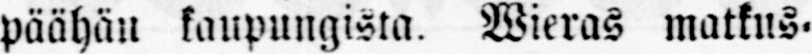päähän kaupungista. Wieras matkus-
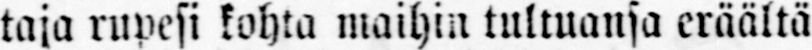taja rupesi kohta maihin tultuansa eräältä
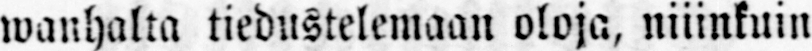wanhalta tiedustelemaan oloja, niiinkuin
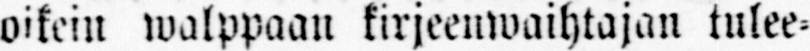oikein walppaan kirjeenwaihtajan tulee-
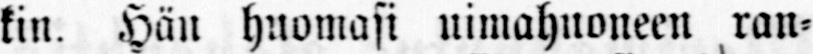kin. Hän huomasi uimahuoneen ran-
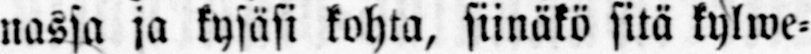nassa ja kysäsi kohta, siinäkö sitä kylwe-
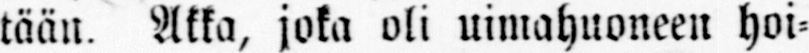tään. Akka, joka oli uimahuoneen hoi-
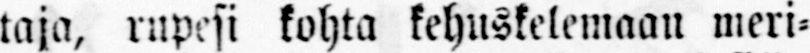taja, rupesi kohta kehuskelemaan meri-
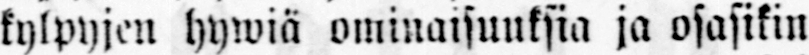kylpyjen hywiä ominaisuuksia ja osasikin
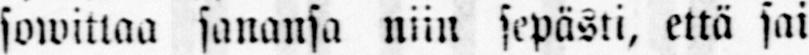sowittaa sanansa niin sepästi, että sai
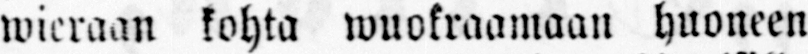wieraan kohta wuokraamaan huoneen
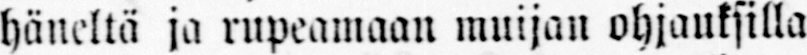häneltä ja rupeamaan muijan ohjauksilla
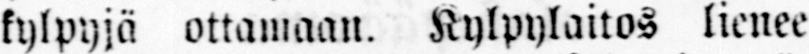kylpyjä ottamaan. Kylpylaitos lienee
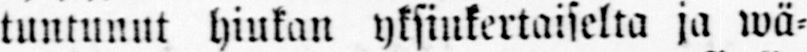tuntunut hiukan yksinkertaiselta ja wä-
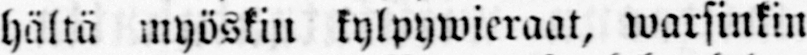hältä myöskin kylpywieraat, warsinkin
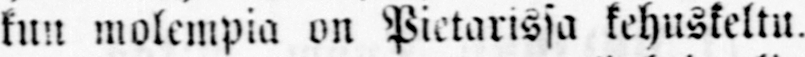kun molempia on Pietarissa kehuskeltu.
